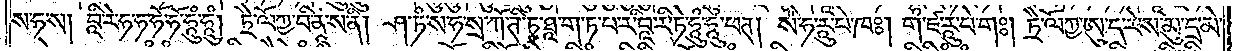ས་ཧ་ས། བཱི་རེ་ཧ་ཧ་ཧོ་ཧོ་ཧཱུཾ་ཧཱུཾ། ཏྲཻ་ལོཀྱ་པི་ན་ས་ནི། ཤ་ཏཾ་ས་ཧ་སྲ་ཀོ་ཊི་ཏ་ཐཱ་ག་ཏ་པ་ར་བཱི་རི་ཏེ་ཧཱུཾ་ཧཱུཾ་ཕཊ། སིཾ་ཧ་རཱུ་པེ་ཁཿ། ག་ཛ་རཱུ་པེ་གཿ། ཏྲཻ་ལོཀྱ་ཨུ་ད་རེ་ས་མུ་དྲ་མེ་
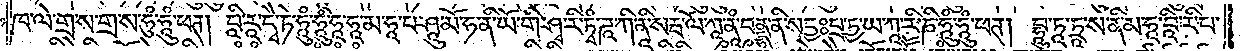ཁ་ལེ་གྲ་ས་གྲ་ས་ཧུཾ་ཧཱུཾ་ཕཊ། བཱི་རཱ་དྭཻ་ཏེ་ཧཱུཾ་ཧཱུཾ་ཧཱ་ཧཱ་མ་ཧཱ་པ་ཤཱུ་མོ་ཧ་ནི་ཡོ་གི་ཤྭ་རི་ཏྭཾ་ཌཱ་ཀི་ནཱི་སརྦ་ལོ་ཀཱ་ནཱཾ་བནྡྷ་ནི་སདྱཿཔྲ་ཏྱ་ཡ་ཀཱ་རི་ཎི་ཧཱུཾ་ཧཱུཾ་ཕཊ། བྷཱུ་ཏཱ་ཏྲཱ་ས་ནི་མ་ཧཱ་བཱི་རི་པ་
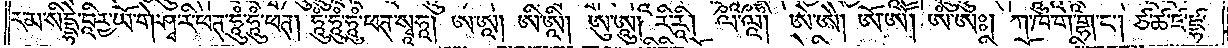ར་མ་སིདྡྷེ་བཱིརྱ་ཡོ་གེ་ཤྭ་རི་ཕཊ་ཧཱུཾ་ཧཱུཾ་ཕཊ། ཧཱུཾ་ཧཱུཾ་ཧཱུཾ་ཕཊ་སྭཱཧཱ། ཨ་ཨཱ། ཨི་ཨཱི། ཨུ་ཨཱུ། རི་རཱི། ལྀ་ལཱྀ། ཨེ་ཨཻ། ཨོ་ཨཽ། ཨཾ་ཨཿ། ཀ་ཁ་ག་གྷ་ང༌། ཙ་ཚ་ཛ་ཛྷ་
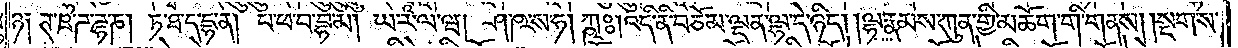ཉ༑ ཊ་ཋ་ཌ་ཌྷ་ཎ། ཏ་ཐ་ད་དྷ་ན། པ་ཕ་བ་བྷ་མ། ཡ་ར་ལ་ཝ། ཤ་ཥ་ས་ཧ། ཀྵཿ། འདི་ནི་བཅོམ་ལྡན་ལྷ་དེ་ཉིད། །ལྷ་རྣམས་ཀུན་གྱི་མཆོག་གི་གནས། །སྔགས་
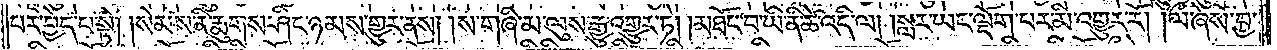པར་བྱེད་པ་སྟེ། །སེམས་ནི་རྨུགས་ཤིང་ཉམས་གྱུར་ནས། །ས་གཞི་མ་ལུས་རྒྱུ་འགྱུར་ཏེ། །མཐོང་བ་ཡི་ནི་ཚེ་འདི་ལ། །སླར་ཡང་ལྡོག་པར་མི་འགྱུར་རོ། །ལྀ་ཞེས་བྱ་
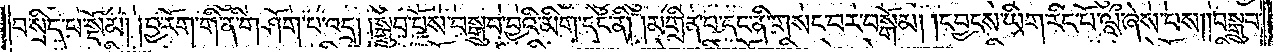བ་སྲིད་པ་སྡོམ། །བྱ་རོག་གི་ནི་གཤོག་པ་འདྲ། །སྒྲུབ་པོས་བསྒྲུབ་བྱའི་མིག་དང་ནི། །མགྲིན་པ་དང་ནི་གསང་བར་བསྒོམ། །དབྱངས་ཡིག་རིང་པོ་ལཱྀ་ཞེས་པས། །བསྒྲུབ་
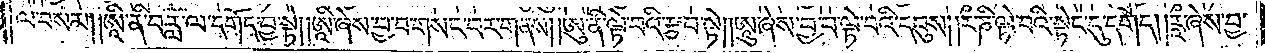ལ་བསམ། །ཨཱི་ནི་བརླ་ལ་དགོད་བྱ་སྟེ། །ཨཱི་ཞེས་བྱ་བ་གསང་བར་གནས། །ཨུ་ནི་ལྟེ་བའི་བརྩ་བ་སྟེ། །ཨཱུ་ཞེས་བྱ་བ་ལྟེ་བའི་དབུས། །རྀ་ཎི་ལྟེ་བའི་སྟེང་དུ་དགོད། །རཱྀ་ཞེས་བྱ་
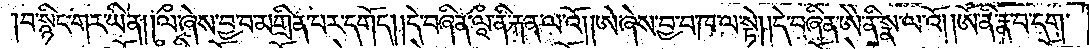བ་སྙིང་གར་ཡིན། །ལྀ་ཞེས་བྱ་བ་མགྲིན་པར་དགོད། །དེ་བཞིན་ལཱྀ་ནི་རྐན་ལ་འོ། །ཨེ་ཞེས་བྱ་བ་ཁ་ལ་སྟེ། །དེ་བཞིན་ཨཻ་ནི་སྣ་ལ་འོ། །ཨོ་ནི་རྣ་བ་དག་
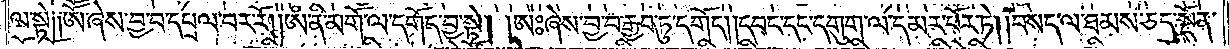ལ་སྟེ༑ ༑ཨཽ་ཞེས་བྱ་བ་དཔྲལ་བར་རོ། །ཨཾ་ནི་མགོ་ལ་དགོད་བྱ་སྟེ། །ཨཿ ཞེས་བྱ་བ་རྒྱབ་ཏུ་དགོད། །དབང་དང་དགུག་ལ་དམར་པོར་ཏེ། །བསད་ལ་ཐམས་ཅད་སྔོན་
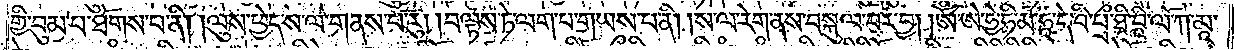གྱི་བུམ་པ་ཐོགས་པ་ནི། །ལུས་ཕྱེད་ས་ལ་གནས་པ་རུ། །བལྟས་ཏེ་ལག་པ་གཡས་པ་ནི། །ས་ལ་རེག་ནས་བསྐུལ་བར་བྱ། །ཨོཾ་ཨེ་ཧྱེ་ཧི་མ་ཧཱ་དེ་བི་པྲྀ་ཐི་བཱི་ལོ་ཀ་མཱ་
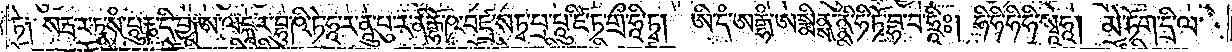ཏེ༑ སརྦ་རཏྣ་སཾ་པཱུརྞ་དི་བྱ༑ ཨ་ལངྐཱ་ར་བྷུ་ཥི་ཏེ་ཧཱ་ར་ནཱུ་པུ་ར་ནིརྒྷོ་ཥ་བཛྲ་ས་ཏྭ་པྲ་པཱུ་ཛི་ཏ་གྲྀ་ཧཱི་ཏྭ། ཨི་དཾ་ཨརྒྷཾ་ཨསྨིནྶ་ནྣི་ཧི་ཏོ་བྷ་བ་ཧྲཱིཿ། ཧི་ཧི་ཧི་ཧི་སྭཱཧཱ། མེ་ཏོག་དྲི་ལ་
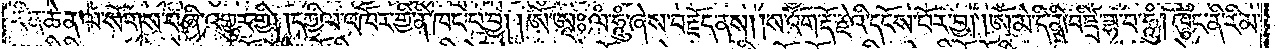རིན་ཆེན་ལ་སོགས་བཞི་འགྱུར་གྱི། །དཀྱིལ་འཁོར་གྱི་ནི་ཁང་པ་བྱ། །ཨོཾ་ཨཱཿ ལཾ་ཧཱུཾ་ཞེས་བརྗོད་ནས། །ས་འོག་རྡོ་རྗེའི་དངོས་པོར་བྱ། །ཨོཾ་མེ་དི་ནི་བཛྲི་བྷ་བ་ཧཱུཾ། ཁུང་ནི་རིམ་
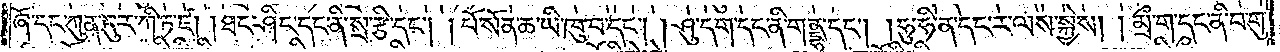ཞོ་དང་ཀུན་དུར་ཀི་ཏ་ཛ། །ཐང་ཤིང་དང་ནི་སྲ་རྩི་དང༌། །པོ་སོན་ཆ་ཡི་ཁུ་བ་དང༌། །ཤུ་དག་དང་ནི་གནྡྷ་དང༌། །ཧུ་ཧི་ན་དང་ར་ལས་སྐྱེས། །མྲྀ་ག་དང་ནི་བ་གུ་
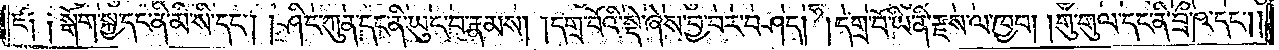ཛ༑ ༑སྒོག་སྐྱ་དང་ནི་མི་སི་དང༌། །ཤིང་ཀུན་དང་ནི་ཡུང་བ་རྣམས། །དགྲ་བོའི་སྡེ་ཞེས་བྱ་བར་བཤད། །དགྲ་བོ་ཡི་ནི་རྫས་ལ་ཁྱབ། །གུ་གུལ་དང་ནི་བྲྀ་ཥ་དང༌། །
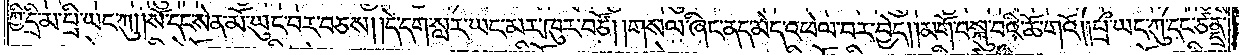ཀྱི་དྲི་མ་པྲི་ཡང་ཀུ། །སོ་དང་སེན་མོ་ཡུང་བར་བཅས། །དེ་དག་སླར་ཡང་མར་ཁུར་བཙོ། །གསལ་ཞིང་ནད་མེད་འཕེལ་བར་བྱེད། །མགོ་བསྐུ་བའི་ཆོ་གའོ། །པྲྀ་ཡང་ཀུ་དང་ཙནྡྲ་
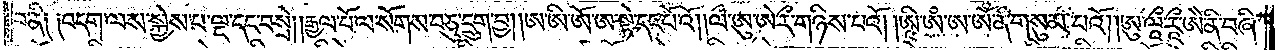པ་ནི༑ ༑བདག་ལས་སྐྱེས་པ་ལྔ་དང་བསྲེ། །རྒྱལ་པོ་ལ་སོགས་བཅུ་དྲུག་བྱ། །ཨ་ཨི་ཨོ་ཨ་སྟེ་དང་པོའོ། །ལྀ་ཨུ་ཨེ་རྀ་གཉིས་པའོ། །ཨཱི་ཨཾ་ཨ་ཨོཾ་ནི་གསུམ་པའོ། །ཨུ་ལཱྀ་རཱྀ་ཨཻ་ནི་བཞི་
